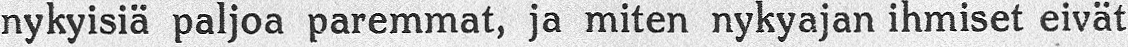nykyisiä paljoa paremmat, ja miten nykyajan ihmiset eivät
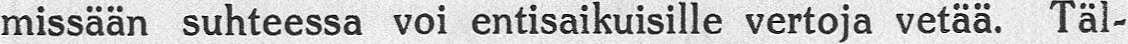missään suhteessa voi entisaikuisille vertoja vetää. Täl-
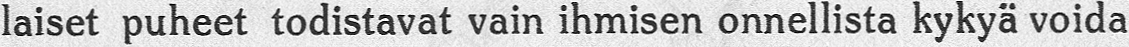laiset puheet todistavat vain ihmisen onnellista kykyä voida
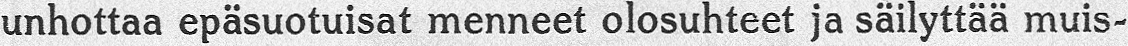unhottaa epäsuotuisat menneet olosuhteet ja säilyttää muis-
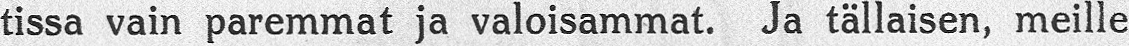tissa vain paremmat ja valoisammat. Ja tällaisen, meille
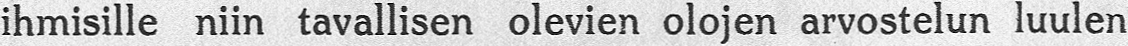ihmisille niin tavallisen olevien olojen arvostelun luulen
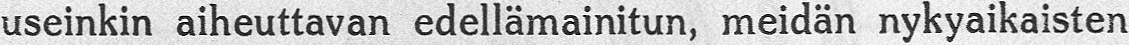useinkin aiheuttavan edellämainitun, meidän nykyaikaisten
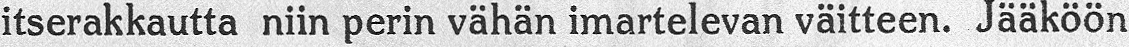itserakkautta niin perin vähän imartelevan väitteen. Jääköön
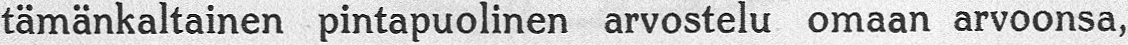tämänkaltainen pintapuolinen arvostelu omaan arvoonsa,
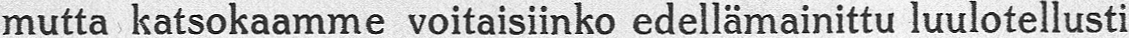mutta katsokaamme voitaisiinko edellämainittu luulotellusti
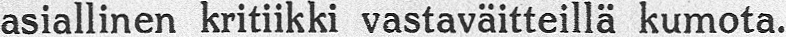asiallinen kritiikki vastaväitteillä kumota.
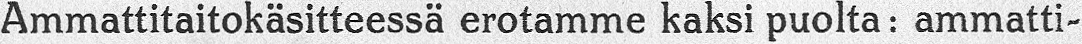Ammattitaitokäsitteessä erotamme kaksi puolta: ammatti-
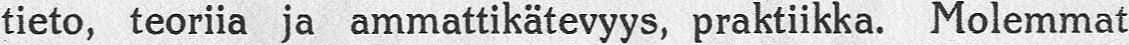tieto, teoriia ja ammattikätevyys, praktiikka. Molemmat
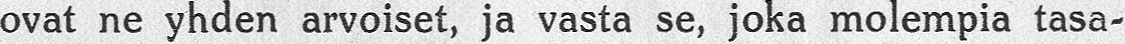ovat ne yhden arvoiset, ja vasta se, joka molempia tasa-
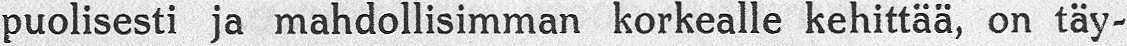puolisesti ja mahdollisimman korkealle kehittää, on täy-
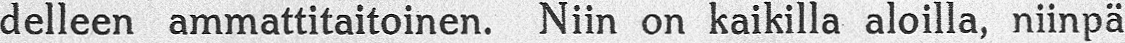delleen ammattitaitoinen, Niin on kaikilla aloilla, niinpä
